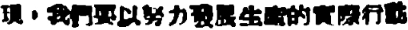現，我們要以努力發展生產的實際行動
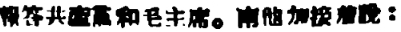報答共產黨和毛主席。南他加接着說：
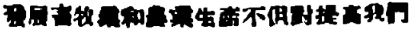發展畜牧業和農業生產不但對提高我們
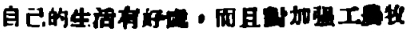自己的生活有好處，而且對加強工農牧
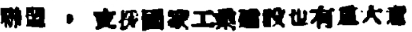聯盟 ，支援國家工業建設也由重大意
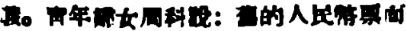義。靑年婦女周科說：舊的人民幣票面
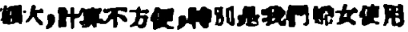額大，計算不方便，特別是我們婦女使用
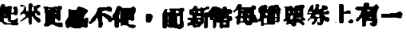起來更感不便，而新幣每種票券上有一
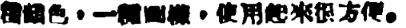種顏色，一種圖樣，使用起來很方便。
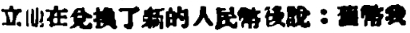立他在兌換了新的人民幣後說：舊幣我
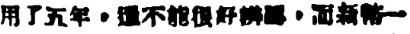用了五年，還不能很好辨認，而新幣一
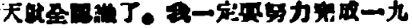天就全認識了。我一定要努力完成一九
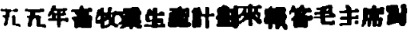五五年畜牧業生產計劃來報答毛主席對
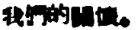我們的關懷。
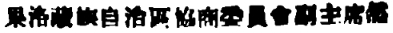果洛藏族自治區協商委員會副主席然
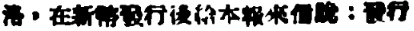洛，在新幣發行後給本報來信說：發行
